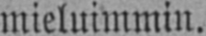mieluimmin.
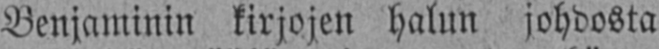Benjaminin kirjojen halun johdosta
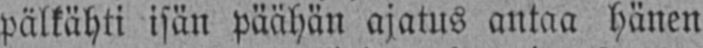pälkähti isän päähän ajatus antaa hänen
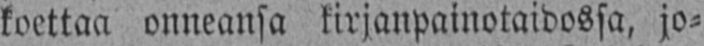koettaa onneansa kirjanpainotaidossa, jo-
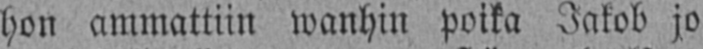hon ammattiin wanhin poika Jakob jo
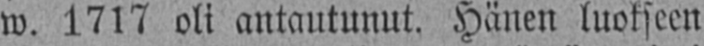w. 1717 oli antautunut. Hänen luokseen
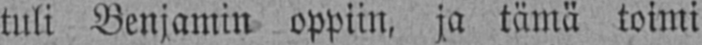tuli Benjamin oppiin, ja tämä toimi
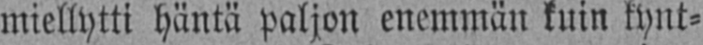miellytti häntä paljon enemmän kuin kynt-
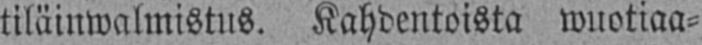tiläinwalmistus. Kahdentoista wuotiaa-
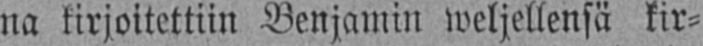na kirjoitettiin Benjamin weljellensä kir-
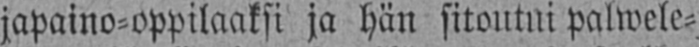japaino-oppilaaksi ja hän sitoutui palwele-
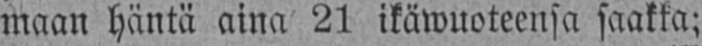maan häntä aina 21 ikäwuoteensa saakka;
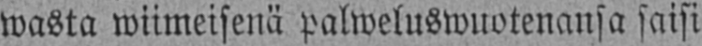wasta wiimeisenä palweluswuotenansa saisi
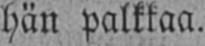hän palkkaa.
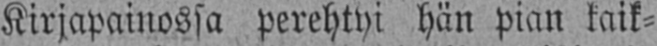Kirjapainossa perehtyi hän pian kaik-
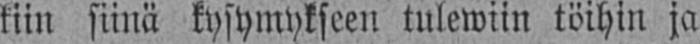kiin siinä kysymykseen tulewiin töihin ja
